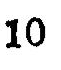10
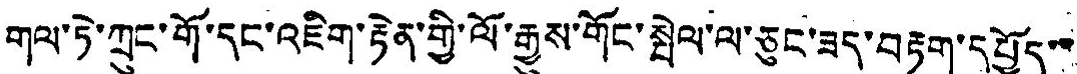གལ་ཏེ་ཀྲུང་གོ་དང་འཇིག་རྟེན་གྱི་ལོ་རྒྱུས་གོང་སྤེལ་ལ་ཅུང་ཟད་བརྟག་དཔྱོད་་་
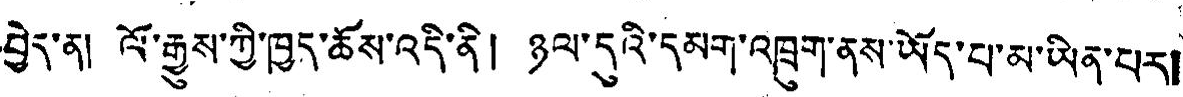བྱེད་ན། ལོ་རྒྱུས་ཀྱི་ཁྱད་ཆོས་འདི་ནི། ཉལ་དུའི་དམག་འཁྲུག་ནས་ཡོད་པ་མ་ཡིན་པར།
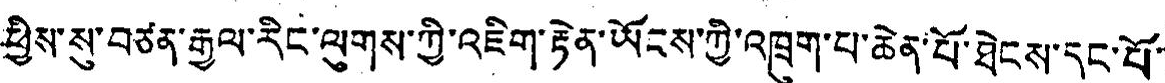ཕྱིས་སུ་བཙན་རྒྱལ་རིང་ལུགས་ཀྱི་འཇིག་རྟེན་ཡོངས་ཀྱི་འཁྲུག་པ་ཆེན་པོ་ཐེངས་དང་པོ་
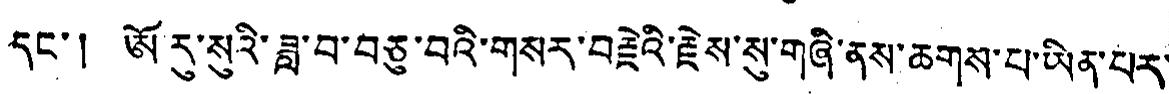དང་། ཡོ་རུ་སུའི་ཟླ་བ་བཅུ་བའི་གསར་བརྗེའི་རྗེས་སུ་གཞི་ནས་ཆགས་པ་ཡིན་པར་
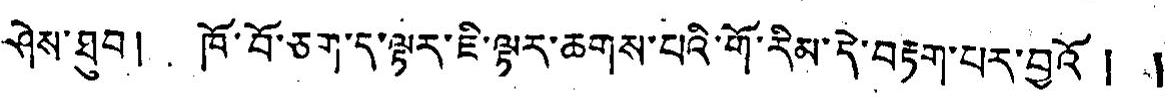ཤེས་ཐུབ། ཁོ་བོ་ཅག་ད་སྟར་ཇི་ལྟར་ཆགས་པའི་གོ་རིམ་དེ་བརྟག་པར་བྱའོ། །
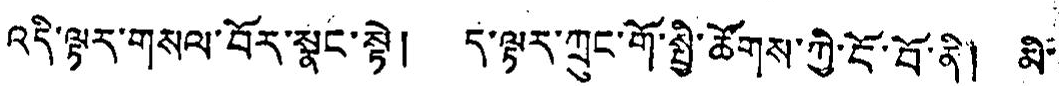འདི་ལྟར་གསལ་བོར་སྣང་སྟེ། ད་ལྟར་ཀྲུང་གོ་སྤྱི་ཚོགས་ཀྱི་ངོ་བོ་ནི། མི་
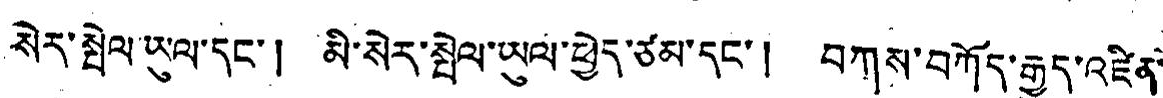སེར་སྤེལ་ཡུལ་དང་། མི་སེར་སྤེལ་ཡུལ་ཕྱེད་ཙམ་དང་། བཀས་བཀོད་རྒྱུད་འཛིན་
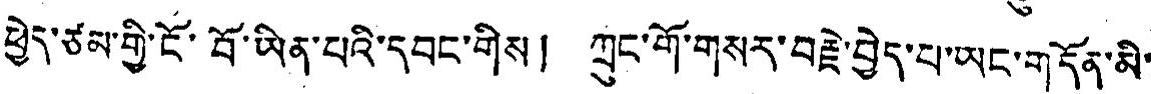ཕྱེད་ཙམ་གྱི་ངོ་བོ་ཡིན་པའི་དབང་གིས། ཀྲུང་གོ་གསར་བརྗེ་བྱེད་པ་ཡང་གདོན་མི་
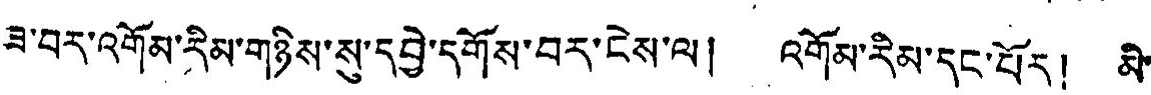ཟ་བར་འགོམ་རིམ་གཉིས་སུ་དབྱེ་དགོས་བར་ངེས་ལ། འགོམ་རིམ་དང་པོར། མི་
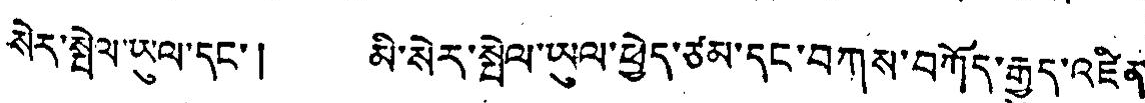སེར་སྤེལ་ཡུལ་དང་། མི་སེར་སྤེལ་ཡུལ་ཕྱེད་ཙམ་དང་བཀས་བཀོད་རྒྱུད་འཛིན་
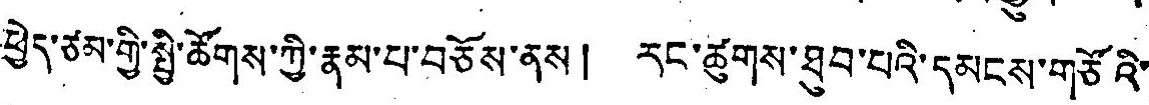ཕྱེད་ཙམ་གྱི་སྤྱི་ཚོགས་ཀྱི་རྣམ་པ་བཅོས་ནས། རང་ཚུགས་ཐུབ་པའི་དམངས་གཙོའི་
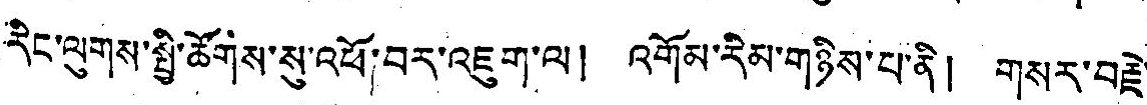རིང་ལུགས་སྤྱི་ཚོགས་སུ་འཕོ་བར་འཇུག་ལ། འགོམ་རིམ་གཉིས་པ་ནི། གསར་བརྗེ་
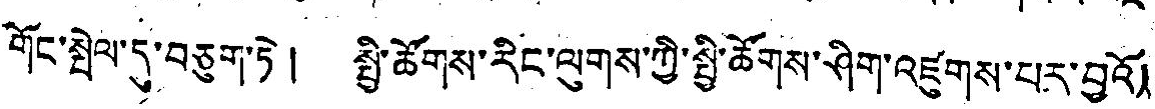གོང་སྤེལ་དུ་བཅུག་ཏེ། སྤྱི་ཚོགས་རིང་ལུགས་ཀྱི་སྤྱི་ཚོགས་ཤིག་འཛུགས་པར་བྱའོ།
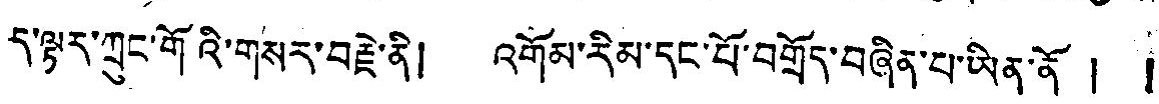ད་ལྟར་ཀྲུང་གོའི་གསར་བརྗེ་ནི། འགོམ་རིམ་དང་པོ་བགྲོད་བཞིན་པ་ཡིན་ནོ། །
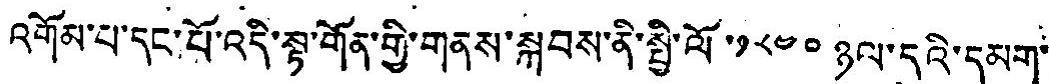འགོམ་པ་དང་པོ་འདི་སྟ་གོན་གྱི་གནས་སྐབས་ནི་སྤྱི་ལོ་༡༨༤༠ ཉལ་དུའི་དམག་
